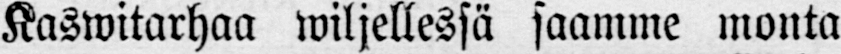Kaswitarhan wiljellessä saamme monta
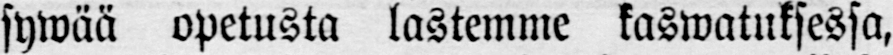sywää opetusta lastemme kaswatuksessa,
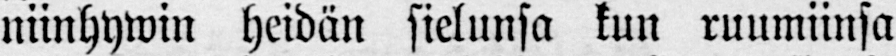niinhywin heidän sielunsa kun ruumiinsa
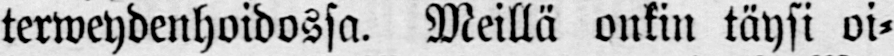terweydenhoidossa. Meillä onkin täysi oi-
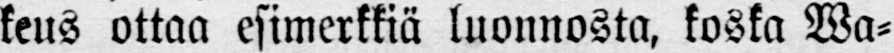keus ottaa esimerkkiä luonnosta, koska Wa-
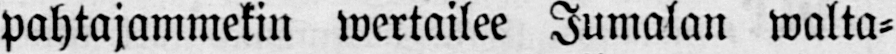pahtajammekin wertailee Jumalan walta-
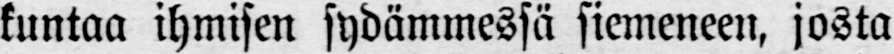kuntaa ihmisen sydämmessä siemeneen, josta
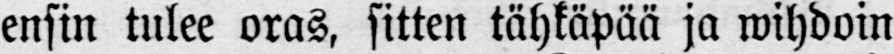ensin tulee oras, sitten tähkäpää ja wihdoin
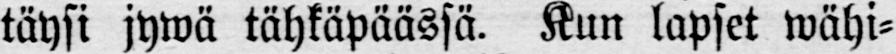täysi jywä tähkäpäässä. Kun lapset wähi-
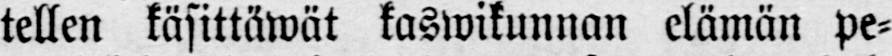tellen käsittäwät kaswikunnan elämän pe-
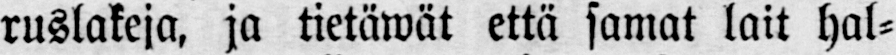ruslakeja, ja tietäwät että samat lait hal-
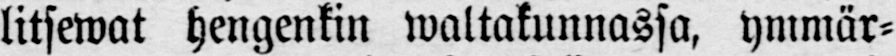litsewat hengenkin waltakunnassa, ymmär-
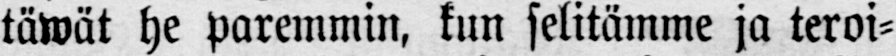täwät he paremmin, kun selitämme ja teroi-
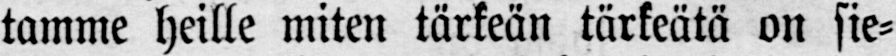tamme heille miten tärkeän tärkeätä on sie-
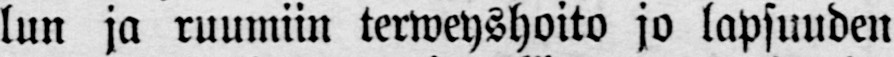lun ja ruumiin terweyshoito jo lapsuuden
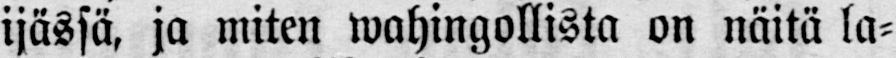ijässä, ja miten wahingollista on näitä la-
